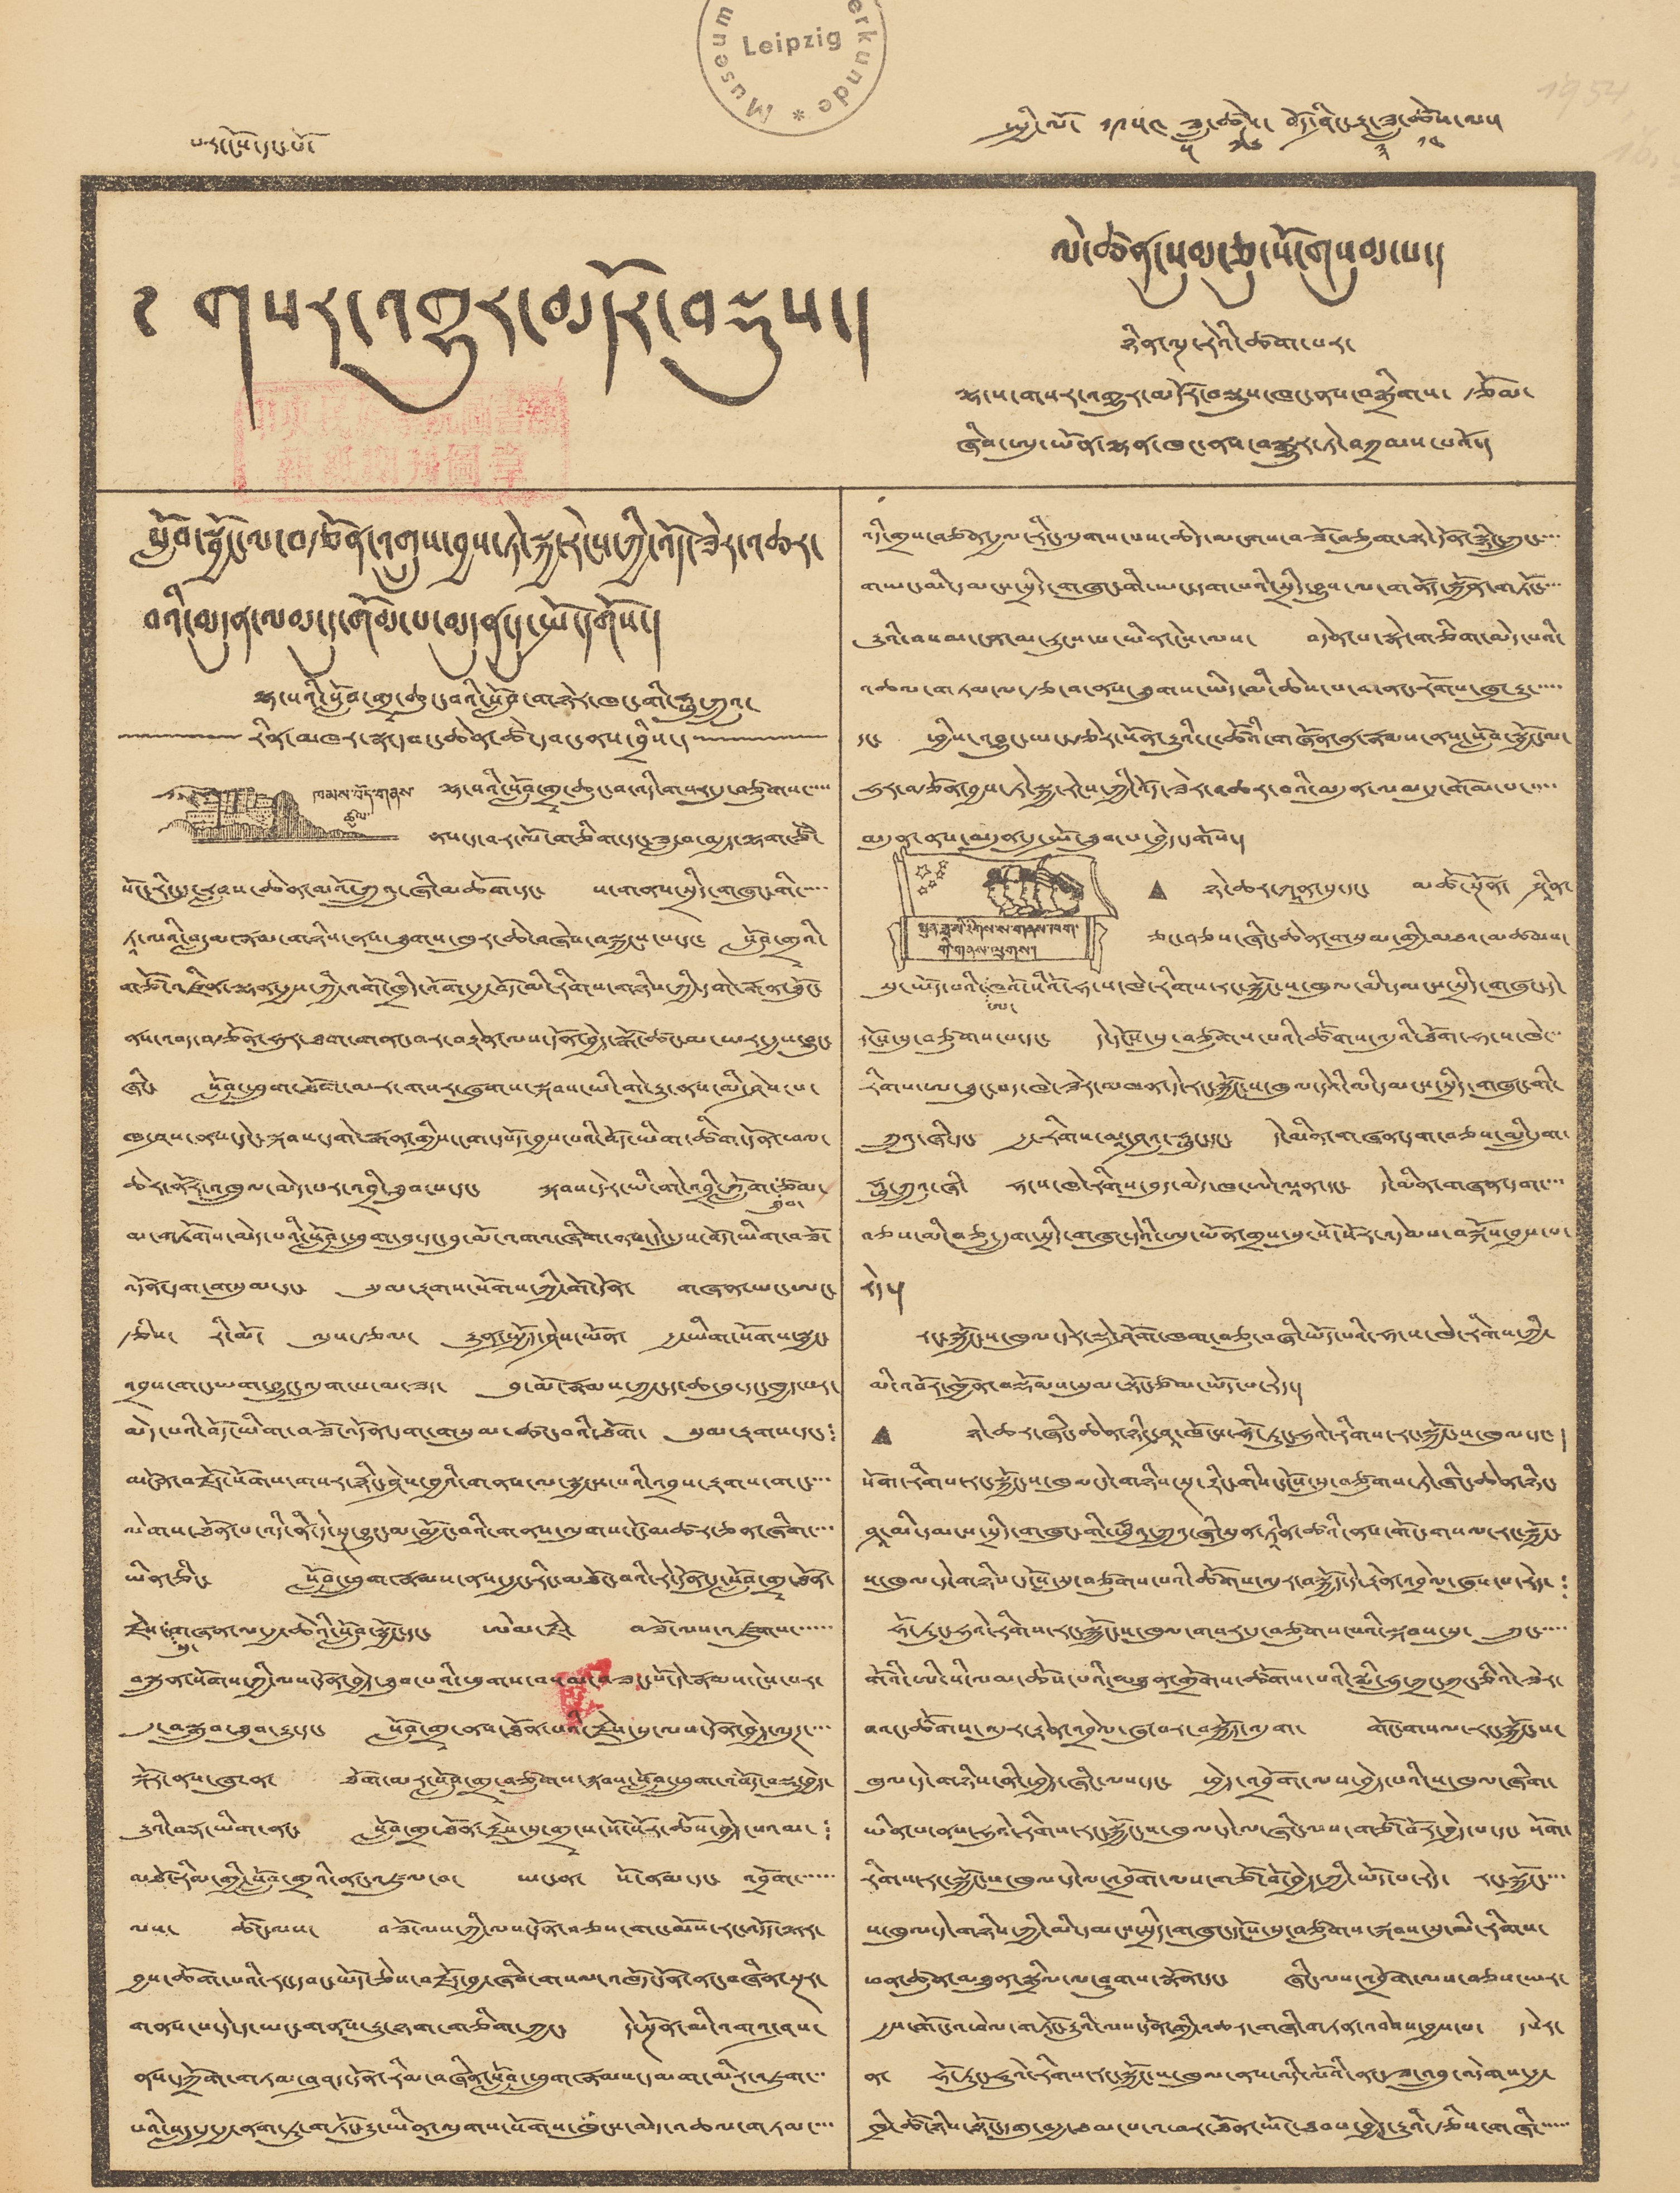པར་ངོས་དང་པོ་ སྤྱི་ལོ་ ༡༩༥༤ ཟླ་
༥
ཚེས་
༡༦
བོད་ཤིང་རྟ་ཟླ་
༣
ཚེས་
༡༤
ལ་།
གསར་འགྱུར་མདོར་བསྡུས་།
ལེ་ཚན་སུམ་ཅུ་སོ་གསུམ་པ་།
ཉིན་ལྔ་རེའི་ཚག་པར་
ལྷ་ས་གསར་འགྱུར་མདོར་བསྡུས་ཁང་ནས་བསྒྲིགས་ རྩོམ་
ཞིབ་ཨུ་ཡོན་ལྷན་ཁང་ནས་བསྒྱུར་ཏེ་བཀྲམས་པའོ་།
སློབ་སྦྱོང་ལ་བརྩོན་འགྲུས་བྱས་ཏེ་སྐྱ་རེངས་ཀྱི་འོད་ཟེར་འཆར་
བའི་མདུན་ལམ་དུ་གོམ་པ་མདུན་དུ་སྤོ་དགོས་།
ལྷ་སའི་སློབ་གྲྭ་ཆུང་བའི་སློབ་གཉེར་ཁང་གི་ཧྥུ་ཀྲུའུ་
རིན་མཁར་སྣ་དབང་ཆེན་ཚེ་དབང་ནས་བྲིས་།
ཁམས་བོད་གནས་
ཚུལ་
ལྷ་སའི་སློབ་གྲྭ་ཆུང་བ་འདི་གསར་དུ་བཙུགས་་་་་
ནས་ད་བར་ལོ་གཅིག་དང་ཟླ་བ་བརྒྱད་ལྷག་ཙཾ་
སོང་རིང་དུ་རླབས་ཆེན་མའོ་ཀྲུའུ་ཞི་མཆོག་དང་ ས་གནས་སྲིད་གཞུང་གི་་་་་
ཏཱ་ལའི་བླ་མ་རྣམ་གཉིས་ནས་ཐུགས་ཁུར་ཆེ་བཞེས་བསྐྱངས་པ་དང་ སློབ་གྲྭའི་
གཙོ་འཛིན་ལྷན་རྒྱས་ཀྱི་འགོ་ཁྲིད་འོག་རྒྱ་བོད་མི་རིགས་གཉིས་ཀྱི་དགེ་རྒན་ཐོུང་
ནས་འབད་བརྩོན་ཧུར་ཐག་གནང་བར་བརྟེན་ལས་དོན་བྱེད་སྒོ་ཚང་མ་ཡར་རྒྱས་བྱུང་
ཞིང་ སློབ་ཕྲུག་ཐོག་མར་གསར་ཞུགས་སྐབས་ཡི་གེ་རྒྱུ་ནས་མི་ཤེས་པ་
ཁ་ཤས་ནས་དེང་སྐབས་དགེ་རྒན་གྱིས་ངག་དཔོད་བྱས་པའི་བོད་ཡིག་ཚིག་དོན་ཕལ་
ཆེར་ནོར་འཁྲུལ་མེད་པར་འབྲི་ཐུབ་པ་དང་ སྐབས་དེར་ཡི་གེ་འབྲི་ཀློག་
ཐུབ་
ཙམ་
མ་གཏོགས་མེད་པའི་སློབ་ཕྲུག་བུ་དང་བུ་མོ་འགའ་ཞིག་ནས་དེང་དུས་བོད་ཡིག་བཟོ་
འདོན་དག་གསུམ་དང་ སུམ་རྟགས་སོགས་ཀྱི་གོ་དོན་ གཞན་ཡང་ཨང་
རྩིས་ རི་མོ་ ལུས་རྩལ་ རྒྱུན་སྤྱོད་ཤེས་ཡོན་ རྒྱ་ཡིག་སོགས་སྦྱང་
འབྲས་གང་ཡག་བྱུང་འདུག་པ་མ་ཟད་ བུ་མོ་རྣམས་ཀྱང་ད་ཆ་བུ་དང་ཁྱད་པར་
མེད་པའི་བོད་ཡིག་བཟོ་དོན་དག་གསུམ་ཚང་བའི་ཐོག་ སུམ་རྟགས་དང་།
མངོན་བརྗོད་སོགས་གསར་རྙིང་ཤེས་བྱའི་གནས་ལ་སྦྱངས་པའི་འབྲས་རྟགས་གང་་་་
ལེགས་ཐོན་པ་འདི་ནི་དེ་སྔ་བྱུང་མ་མྱོང་བའི་གནས་ལུགས་ངོ་མཚར་ཅན་ཞིག་་་་
ཡིན་ཅིང་ སློབ་ཕྲུག་རྣམས་ནས་རྒྱང་རིང་མཐོང་བའི་རེ་དོན་དུ་སློབ་གྲྭ་ཐོན་
རྗེས་
སུ་
གཞན་ལ་རྒྱ་ཆེའི་སློབ་སྦྱོང་དང་ ཨེམ་རྗེ་ བཟོ་ལས་འཛུགས་་་་་་
བསྐྲུན་སོགས་ཀྱི་ལས་དོན་བྱེད་ཐུབ་པའི་ཕུགས་བསམ་བཟང་པོ་དེ་རྣམས་ངེས་པར་
དུ་བསྒྲུབ་ཐུབ་རྒྱུ་དང་ སློབ་གྲྭ་ནས་ཐོན་པའི་རྗེས་སུ་ལས་དོན་བྱེད་ལུཊ་་་་
སྐོར་ནས་ཞུ་ན་ ཐོག་མར་སློབ་གྲྭ་བཙུགས་སྐབས་སློབ་ཕྲུག་འབོད་བསྡུ་བྱེད་
རྒྱུའི་བརྡ་ཡིག་ནང་ སློབ་གྲ་ཐོན་རྗེས་སུ་གྲྭ་པ་སོ་སོར་ཆོས་བྱེད་པའམ་ །
མཐོ་རིམ་གྱི་སློབ་གྲྭའི་ནང་འཛུལ་བ་ ཡང་ན་ སོ་ནམ་དང་ འབྲོག་་་་་་
ལས་ ཚོང་ལས་ བཟོ་ལས་ཀྱི་ལས་དོན་བཅས་གང་མོས་རང་འདོད་ལྟར་
བྱས་ཆོག་པའི་རང་དབང་ཡོད་ཅེས་བརྗོད་བྱ་ཞིབ་གསལ་འཁོ་དོན་ནང་བཞིན་སྔར་
གནས་པ་དེ་ད་ཡང་གནས་རྒྱུ་ཉག་གཅིག་ཀྱང་ དེ་སྔོན་མི་འགའ་ཤས་
ནས་དཀྲོག་གཏམ་བཤད་དོན་རིམ་བཞིན་སློབ་ཕྲུག་རྣམས་དམག་མིར་འཇུག་་་
པའི་སླད་དུ་རྒྱ་ནག་ཏུ་གཏོང་རྒྱུ་ཡིན་ལུགས་སོགས་ཁུངས་མེད་འཆལ་གཏམ་་་་
འདི་གྲས་བཙན་རྒྱལ་རིང་ལུགས་པས་ཆེད་མངགས་བཟོ་བཅུག་སྟེ་དོན་སྙིང་ཀྲུང་་་་
གཡང་མི་དམངས་སྲིད་གཞུང་གི་ཡང་དག་པའི་སྲིད་བྱུས་ལ་གནོད་སྐྱོན་གཏོང་་་་
རྒྱུའི་བསམ་ངན་མ་རུངས་པ་ཡིན་ངེས་ལས་ བདེན་པ་སྣེ་གཅིག་མེད་པའི་
འཆལ་གཏམ་ལ་རྩ་བ་ནས་ཐུགས་ཡིད་མི་ཆེས་པ་གནང་རོགས་ཞུ་རྒྱུ་་་་་
དང་ ཕྱིས་འབྱུང་ཡང་རྩེར་སོན་རྒྱུའི་ང་ཚོའི་གཞོན་ནུ་རྣམས་ནས་སློབ་སྦྱོང་ལ་
ཧུར་བརྩོན་བྱས་ཏེ་སྐྱ་རེངས་ཀྱི་འོད་ཟེར་འཆར་བའི་མདུན་ལམ་དུ་གོམ་པ་་་་་
མདུན་ནས་མདུན་དུ་སྤོ་ཐུགས་བྱེད་དགོས་།
སྤུན་ཟླ་མི་རིགས་ས་གནས་ཁག་
གི་གནས་ལུགས་།
• ཉེ་ཆར་ཀཱན་སུ་དང་ མཚོ་སྔོན་ ཤཱིན་
ཅང་བཅས་ཞིང་ཆེན་གསུམ་གྱི་མཐའ་མཚམས་
སུ་ཡོད་པའི་
ཨ་
ཁའོ་སིའོ་ཧ་ས་ཁེ་རིགས་རང་སྐྱོང་ས་ཁུལ་མི་དམངས་སྲིད་གཞུང་དེ་
དངོས་སུ་བཙུགས་པ་དང་ དེ་དངོས་སུ་བཙུགས་པའི་ཚོགས་འདུའི་ཐོག་ཧ་ས་ཁེ་་་
རིགས་ཨ་ཐུང་པད་ཁེ་ཟེར་མཁན་དེ་རང་སྐྱོང་ས་ཁུལ་དེའི་མི་དམངས་སྲིད་གཞུང་གི་
ཀྲུའུ་ཞི་དང་ རྒྱ་རིགས་མཱ་ཤའུ་ཧྥུང་དང་ དེ་མིན་གཞན་དག་བཅས་མི་དྲུག་
ཧྥུ་ཀྲུའུ་ཞི་ ཧ་ས་ཁེ་རིགས་བུད་མེད་ཁ་ཨེ་ལཱན་དང་ དེ་མིན་གཞན་དག་་་་
བཅས་མི་བཅུ་དྲུག་སྲིད་གཞུང་དེའི་ཨུ་ཡོན་གྲས་སུ་སོ་སོར་འདེམས་བསྐོས་བྱས་པ་
རེད་།
རང་སྐྱོང་ས་ཁུལ་དེར་སྡེ་ཤོག་ཁག་བཅུ་བཞི་ཡོད་པའི་ཧ་ས་ཁེ་རིགས་ཀྱི་
མི་འབོར་ཁྱོན་བསྡོམས་སུམ་སྟོང་ཙམ་ཡོད་པ་རེད་།
• ཉེ་ཆར་ཞིང་ཆེན་ཉིང་ཤཱ་ཁོངས་ཧོ་ཏུང་ཧུའེ་རིགས་རང་སྐྱོང་ས་ཁུལ་དང་ །
སོག་རིགས་རང་སྐྱོང་ས་ཁུལ་དེ་གཉིས་སྔ་རྟིང་གིས་དངོས་སུ་བཙུགས་ཏེ་ཞིང་ཆེན་ཉིང་
ཤཱ་མི་དམངས་སྲིད་གཞུང་གི་ཧྥུའུ་ཀྲུའུ་ཞི་སུན་ཏཱིན་ཚའི་ནས་གོང་གསལ་རང་སྐྱོང་
ས་ཁུལ་དེ་གཉིས་དངོས་སུ་བཙུགས་པའི་ཚོགས་འདུར་བསྐྱོད་དེ་རྟེན་འབྲེལ་ཞུས་པ་རེད་ །
ཧོ་ཏུང་ཧུའེ་རིགས་རང་སྐྱོང་ས་ཁུལ་གསར་དུ་བཙུགས་པའི་སྐབས་སུ་ ཀྲུང་་་་་
གོའི་ཨི་སི་ལམ་ཆོས་པའི་མཐུན་གྲོགས་ཚོགས་པའི་སྨི་ཧྲུ་ཀྲང་ཀྲང་ཅིའེ་ཟེར་
བའང་ཚོགས་འདུར་རྟེན་འབྲེལ་ཞུ་བར་བསྐྱོད་འདུག་ གོང་གསལ་རང་སྐྱོང་ས་
ཁུལ་དེ་གཉིས་ནི་ཕྱེད་ཞིང་ལས་དང་ ཕྱེད་འབྲོག་ལས་བྱེད་པའི་ས་ཁུལ་ཞིག་
ཡིན་པ་ནས་ཧུའེ་རིགས་རང་སྐྱོང་ས་ཁུལ་དེ་ལ་ཞིང་ལས་གཙོ་བོར་བྱེད་པ་དང་ སོག་
རིགས་རང་སྐྱོང་ས་ཁུལ་དེ་ལ་འབྲོག་ལས་གཙོ་བོ་བྱེད་ཀྱི་ཡོད་པ་རེད་ རང་སྐྱོང་་་་
ས་ཁུལ་དེ་གཉིས་ཀྱི་མི་དམངས་སྲིད་གཞུང་དངོས་སུ་བཙུགས་སྐབས་སུ་མི་རིགས་
ཕན་ཚུན་མཐུན་སྒྲིལ་ལ་ཤུགས་སྣོན་དང་ ཞིང་ལས་འབྲོག་ལས་བཅས་ཡར་
རྒྱས་གོང་འཕེལ་གཏོང་རྒྱུའི་ལས་དོན་གྱི་འཆར་གཞི་གཏན་འབེབས་བྱས་པ་ དཔེར་
ན་ ཧོ་ཏུང་ཧུའེ་རིགས་རང་སྐྱོང་ས་ཁུལ་ནས་འདི་ལོའི་ནང་ཟ་འབྲུ་འདེགས་རྒྱ་
ཁྲི་ཚོ་ཉིས་སྟོང་དགུ་བརྒྱ་ཐམ་པ་འཕར་ཐོན་ཡོང་ཐབས་བྱེད་རྒྱུའི་རྩིས་གཞི་་་་་་
